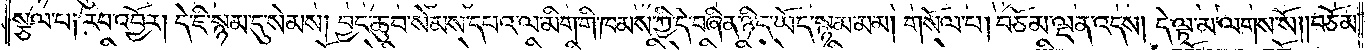སྩལ་པ༑ རབ་འབྱོར། དེ་ཇི་སྙམ་དུ་སེམས། བྱང་ཆུབ་སེམས་དཔའ་ལ་མིག་གི་ཁམས་ཀྱི་དེ་བཞིན་ཉིད་ཡོད་སྙམ་མམ། གསོལ་པ། བཅོམ་ལྡན་འདས། དེ་ལྟ་མ་ལགས་སོ། །བཅོམ་
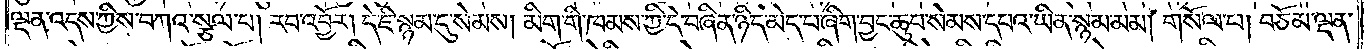ལྡན་འདས་ཀྱིས་བཀའ་སྩལ་པ། རབ་འབྱོར། དེ་ཇི་སྙམ་དུ་སེམས། མིག་གི་ཁམས་ཀྱི་དེ་བཞིན་ཉིད་མེད་པ་ཞིག་བྱང་ཆུབ་སེམས་དཔའ་ཡིན་སྙམ་མམ། གསོལ་པ། བཅོམ་ལྡན་
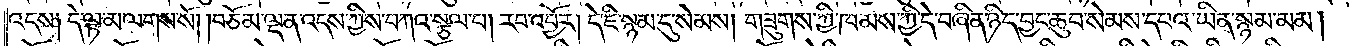འདས༑ དེ་ལྟ་མ་ལགས་སོ། །བཅོམ་ལྡན་འདས་ཀྱིས་བཀའ་སྩལ་པ། རབ་འབྱོར། དེ་ཇི་སྙམ་དུ་སེམས། གཟུགས་ཀྱི་ཁམས་ཀྱི་དེ་བཞིན་ཉིད་བྱང་ཆུབ་སེམས་དཔའ་ཡིན་སྙམ་མམ་།
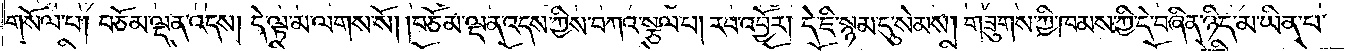གསོལ་པ། བཅོམ་ལྡན་འདས། དེ་ལྟ་མ་ལགས་སོ། །བཅོམ་ལྡན་འདས་ཀྱིས་བཀའ་སྩལ་པ། རབ་འབྱོར། དེ་ཇི་སྙམ་དུ་སེམས། གཟུགས་ཀྱི་ཁམས་ཀྱི་དེ་བཞིན་ཉིད་མ་ཡིན་པ་
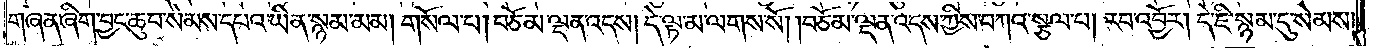གཞན་ཞིག་བྱང་ཆུབ་སེམས་དཔའ་ཡིན་སྙམ་མམ། གསོལ་པ། བཅོམ་ལྡན་འདས། དེ་ལྟ་མ་ལགས་སོ། །བཅོམ་ལྡན་འདས་ཀྱིས་བཀའ་སྩལ་པ། རབ་འབྱོར། དེ་ཇི་སྙམ་དུ་སེམས།
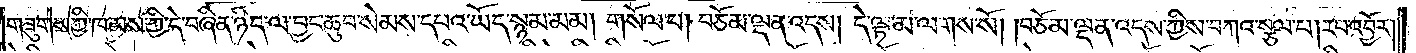གཟུགས་ཀྱི་ཁམས་ཀྱི་དེ་བཞིན་ཉིད་ལ་བྱང་ཆུབ་སེམས་དཔའ་ཡོད་སྙམ་མམ། གསོལ་པ། བཅོམ་ལྡན་འདས། དེ་ལྟ་མ་ལགས་སོ། །བཅོམ་ལྡན་འདས་ཀྱིས་བཀའ་སྩལ་པ། རབ་འབྱོར།
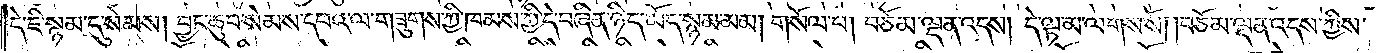དེ་ཇི་སྙམ་དུ་སེམས། བྱང་ཆུབ་སེམས་དཔའ་ལ་གཟུགས་ཀྱི་ཁམས་ཀྱི་དེ་བཞིན་ཉིད་ཡོད་སྙམ་མམ། གསོལ་པ། བཅོམ་ལྡན་འདས། དེ་ལྟ་མ་ལགས་སོ། །བཅོམ་ལྡན་འདས་ཀྱིས་
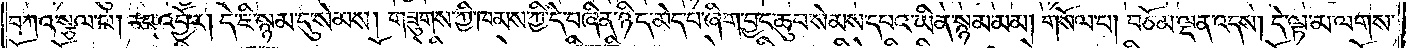བཀའ་སྩལ་པ། རབ་འབྱོར། དེ་ཇི་སྙམ་དུ་སེམས། གཟུགས་ཀྱི་ཁམས་ཀྱི་དེ་བཞིན་ཉིད་མེད་པ་ཞིག་བྱང་ཆུབ་སེམས་དཔའ་ཡིན་སྙམ་མམ། གསོལ་པ། བཅོམ་ལྡན་འདས། དེ་ལྟ་མ་ལགས་
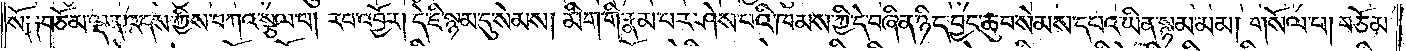སོ༑ ༑བཅོམ་ལྡན་འདས་ཀྱིས་བཀའ་སྩལ་པ། རབ་འབྱོར། དེ་ཇི་སྙམ་དུ་སེམས། མིག་གི་རྣམ་པར་ཤེས་པའི་ཁམས་ཀྱི་དེ་བཞིན་ཉིད་བྱང་ཆུབ་སེམས་དཔའ་ཡིན་སྙམ་མམ། གསོལ་པ། བཅོམ་
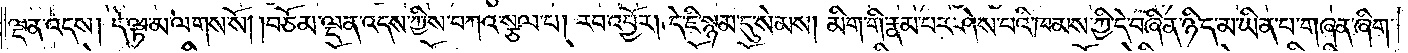ལྡན་འདས། དེ་ལྟ་མ་ལགས་སོ། །བཅོམ་ལྡན་འདས་ཀྱིས་བཀའ་སྩལ་པ། རབ་འབྱོར། དེ་ཇི་སྙམ་དུ་སེམས། མིག་གི་རྣམ་པར་ཤེས་པའི་ཁམས་ཀྱི་དེ་བཞིན་ཉིད་མ་ཡིན་པ་གཞན་ཞིག་
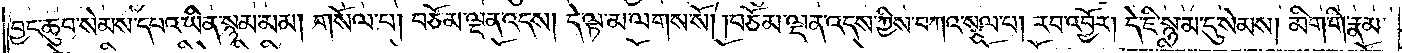བྱང་ཆུབ་སེམས་དཔའ་ཡིན་སྙམ་མམ། གསོལ་པ། བཅོམ་ལྡན་འདས། དེ་ལྟ་མ་ལགས་སོ། །བཅོམ་ལྡན་འདས་ཀྱིས་བཀའ་སྩལ་པ། རབ་འབྱོར། དེ་ཇི་སྙམ་དུ་སེམས། མིག་གི་རྣམ་
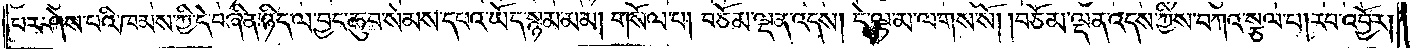པར་ཤེས་པའི་ཁམས་ཀྱི་དེ་བཞིན་ཉིད་ལ་བྱང་ཆུབ་སེམས་དཔའ་ཡོད་སྙམ་མམ། གསོལ་པ། བཅོམ་ལྡན་འདས། དེ་ལྟ་མ་ལགས་སོ། །བཅོམ་ལྡན་འདས་ཀྱིས་བཀའ་སྩལ་པ། རབ་འབྱོར།
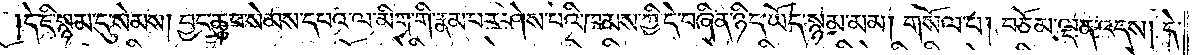དེ་ཇི་སྙམ་དུ་སེམས། བྱང་ཆུབ་སེམས་དཔའ་ལ་མིག་གི་རྣམ་པར་ཤེས་པའི་ཁམས་ཀྱི་དེ་བཞིན་ཉིད་ཡོད་སྙམ་མམ། གསོལ་པ། བཅོམ་ལྡན་འདས། དེ་
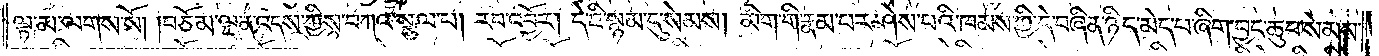ལྟ་མ་ལགས་སོ། །བཅོམ་ལྡན་འདས་ཀྱིས་བཀའ་སྩལ་པ། རབ་འབྱོར། དེ་ཇི་སྙམ་དུ་སེམས། མིག་གི་རྣམ་པར་ཤེས་པའི་ཁམས་ཀྱི་དེ་བཞིན་ཉིད་མེད་པ་ཞིག་བྱང་ཆུབ་སེམས་
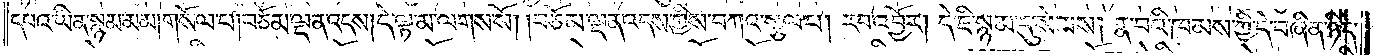དཔའ་ཡིན་སྙམ་མམ། གསོལ་པ། བཅོམ་ལྡན་འདས། དེ་ལྟ་མ་ལགས་སོ། །བཅོམ་ལྡན་འདས་ཀྱིས་བཀའ་སྩལ་པ། རབ་འབྱོར། དེ་ཇི་སྙམ་དུ་སེམས། རྣ་བའི་ཁམས་ཀྱི་དེ་བཞིན་ཉིད་
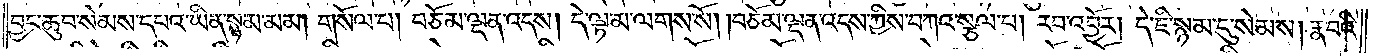བྱང་ཆུབ་སེམས་དཔའ་ཡིན་སྙམ་མམ། གསོལ་པ། བཅོམ་ལྡན་འདས། དེ་ལྟ་མ་ལགས་སོ། །བཅོམ་ལྡན་འདས་ཀྱིས་བཀའ་སྩལ་པ། རབ་འབྱོར། དེ་ཇི་སྙམ་དུ་སེམས། རྣ་བའི་
